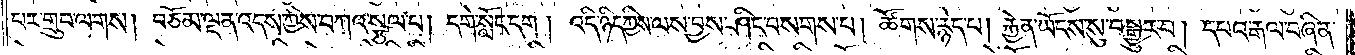པར་གྲུབ་ལགས། བཅོམ་ལྡན་འདས་ཀྱིས་བཀའ་སྩལ་པ། དགེ་སློང་དག། འདི་ཉིད་ཀྱིས་ལས་བྱས་ཤིང་བསགས་པ། ཚོགས་རྙེད་པ། རྐྱེན་ཡོངས་སུ་བསྒྱུར་བ། དཔའ་རྒལ་བཞིན་
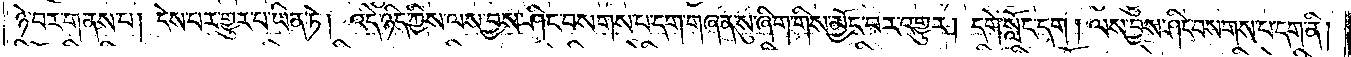ཉེ་བར་གནས་པ། ངེས་པར་གྱུར་པ་ཡིན་ཏེ། འདི་ཉིད་ཀྱིས་ལས་བྱས་ཤིང་བསགས་པ་དག་གཞན་སུ་ཞིག་གིས་མྱོང་བར་འགྱུར། དགེ་སློང་དག། ལས་བྱས་ཤིང་བསགས་པ་དག་ནི།
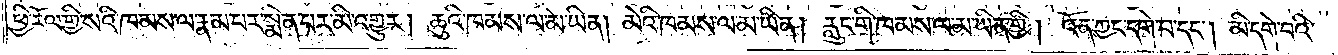ཕྱི་རོལ་གྱི་སའི་ཁམས་ལ་རྣམ་པར་སྨིན་པར་མི་འགྱུར། ཆུའི་ཁམས་ལ་མ་ཡིན། མེའི་ཁམས་ལ་མ་ཡིན། རླུང་གི་ཁམས་ལ་མ་ཡིན་གྱི། འོན་ཀྱང་དགེ་བ་དང༌། མི་དགེ་བའི་
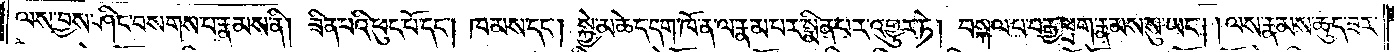ལས་བྱས་ཤིང་བསགས་པ་རྣམས་ནི། ཟིན་པའི་ཕུང་པོ་དང༌། ཁམས་དང༌། སྐྱེ་མཆེད་དག་ཁོ་ན་ལ་རྣམ་པར་སྨིན་པར་འགྱུར་ཏེ། བསྐལ་པ་བརྒྱ་ཕྲག་རྣམས་སུ་ཡང༌། །ལས་རྣམས་ཆུད་ཟར་
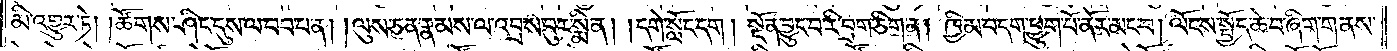མི་འགྱུར་ཏེ། །ཚོགས་ཤིང་དུས་ལ་བབ་པ་ན། །ལུས་ཅན་རྣམས་ལ་འབྲས་བུར་སྨིན། །དགེ་སློང་དག། སྔོན་བྱུང་བ་རི་བྲག་ཅིག་ན། ཁྱིམ་བདག་ཕྱུག་པོ་ནོར་མང་བ། ལོངས་སྤྱོད་ཆེ་བ་ཞིག་གནས་
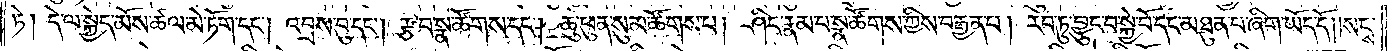ཏེ། དེ་ལ་སྐྱེད་མོས་ཚལ་མེ་ཏོག་དང༌། འབྲས་བུ་དང༌། རྩ་བ་སྣ་ཚོགས་དང༌། ཆུ་ཕུན་སུམ་ཚོགས་པ། ཤིང་རྣམ་པ་སྣ་ཚོགས་ཀྱིས་བརྒྱན་པ། རབ་ཏུ་བྱུང་བ་སྐྱེ་བོ་དང་མཐུན་པ་ཞིག་ཡོད་དོ། །སངས་
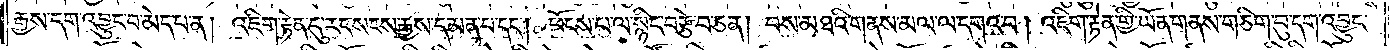རྒྱས་དག་འབྱུང་བ་མེད་པ་ན། འཇིག་རྟེན་དུ་རང་སངས་རྒྱས་དམན་པ་དང༌། ཕོངས་པ་ལ་སྙིང་བརྩེ་བ་ཅན། བས་མཐའི་གནས་མལ་ལ་དགའ་བ། འཇིག་རྟེན་གྱི་ཡོན་གནས་གཅིག་བུ་དག་འབྱུང་
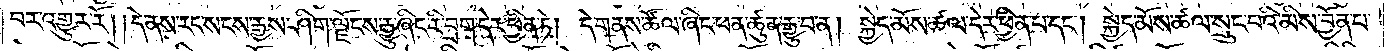བར་འགྱུར་རོ། །དེ་ནས་རང་སངས་རྒྱས་ཤིག་ལྗོངས་རྒྱུ་ཞིང་རི་བྲག་དེར་ཕྱིན་ཏེ། དེ་གནས་ཚོལ་ཞིང་ཕན་ཚུན་རྒྱུ་བ་ན། སྐྱེད་མོས་ཚལ་དེར་ཕྱིན་པ་དང༌། སྐྱེད་མོས་ཚལ་སྲུང་བའི་མིས་བྱོན་པ་
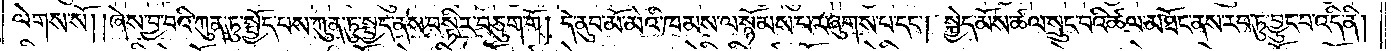ལེགས་སོ། །ཞེས་བྱ་བའི་ཀུན་ཏུ་སྤྱོད་པས་ཀུན་ཏུ་སྤྱད་ནས་བསྟིར་བཅུག་གོ། དེ་ནུབ་མོ་མེའི་ཁམས་ལ་སྙོམས་པར་ཞུགས་པ་དང༌། སྐྱེད་མོས་ཚལ་སྲུང་བའི་ཚལ་མཐོང་ནས་རབ་ཏུ་བྱུང་བ་འདི་ནི།
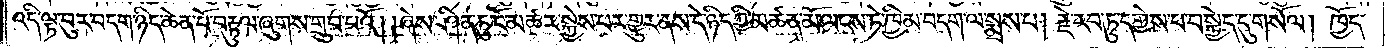འདི་ལྟ་བུར་བདག་ཉིད་ཆེན་པོ་བརྟུལ་ཞུགས་གྲུབ་པའོ། །ཞེས་ཤིན་ཏུ་ངོ་མཚར་སྐྱེས་པར་གྱུར་ནས་དེ་ཉིད་ཀྱི་མཚན་མོ་ལངས་ཏེ་ཁྱིམ་བདག་ལ་སྨྲས་པ། རྗེ་རབ་ཏུ་དགྱེས་པ་བསྐྱེད་དུ་གསོལ། ཁྱོད་
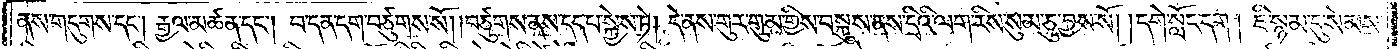ནས་གདུགས་དང༌། རྒྱལ་མཚན་དང༌། བ་དན་དག་བཙུགས་སོ། །བཙུགས་ནས་དད་པ་སྐྱེས་ཏེ། དེ་ནས་གུར་གུམ་གྱིས་བསྐུས་ནས་དྲིའི་ལག་རིས་སུམ་ཅུ་བྱས་སོ། །དགེ་སློང་དག། ཇི་སྙམ་དུ་སེམས་
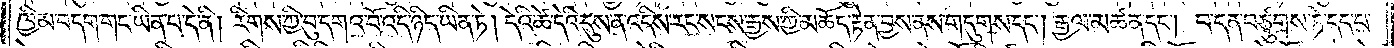ཁྱིམ་བདག་གང་ཡིན་པ་དེ་ནི། རིགས་ཀྱི་བུ་དགའ་བོ་འདི་ཉིད་ཡིན་ཏེ། དེའི་ཚེ་དེའི་དུས་ན་འདིས་རང་སངས་རྒྱས་ཀྱི་མཆོད་རྟེན་བྱས་ནས་གདུགས་དང༌། རྒྱལ་མཚན་དང༌། བ་དན་བཙུགས་ཏེ་དད་པ་
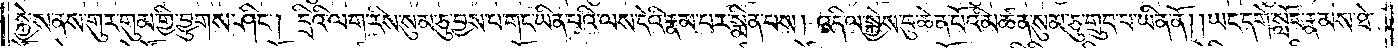སྐྱེས་ནས་གུར་གུམ་གྱི་བྱུགས་ཤིང༌། དྲིའི་ལག་རིས་སུམ་ཅུ་བྱས་པ་གང་ཡིན་པའི་ལས་དེའི་རྣམ་པར་སྨིན་པས། འདི་ལ་སྐྱེས་བུ་ཆེན་པོའི་མཚན་སུམ་ཅུ་གྲུབ་པ་ཡིན་ནོ། །ཡང་དགེ་སློང་རྣམས་ཐེ་
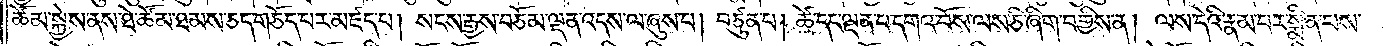ཚོམ་སྐྱེས་ནས་ཐེ་ཚོམ་ཐམས་ཅད་གཅོད་པར་མཛད་པ། སངས་རྒྱས་བཅོམ་ལྡན་འདས་ལ་ཞུས་པ། བཙུན་པ། ཚེ་དང་ལྡན་པ་དགའ་བོས་ལས་ཅི་ཞིག་བགྱིས་ན། ལས་དེའི་རྣམ་པར་སྨིན་པས་
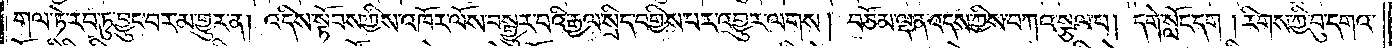གལ་ཏེ་རབ་ཏུ་བྱུང་བར་མ་གྱུར་ན། འདིས་སྟོབས་ཀྱིས་འཁོར་ལོས་བསྒྱུར་བའི་རྒྱལ་སྲིད་བགྱིས་པར་འགྱུར་ལགས། བཅོམ་ལྡན་འདས་ཀྱིས་བཀའ་སྩལ་པ། དགེ་སློང་དག །རིགས་ཀྱི་བུ་དགའ་
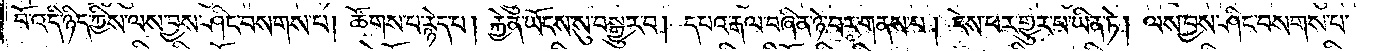བོ་འདི་ཉིད་ཀྱིས་ལས་བྱས་ཤིང་བསགས་པ། ཚོགས་པ་རྙེད་པ། རྐྱེན་ཡོངས་སུ་བསྒྱུར་བ། དཔའ་རྒལ་བཞིན་ཉེ་བར་གནས་པ། ངེས་པར་གྱུར་པ་ཡིན་ཏེ། ལས་བྱས་ཤིང་བསགས་པ་
